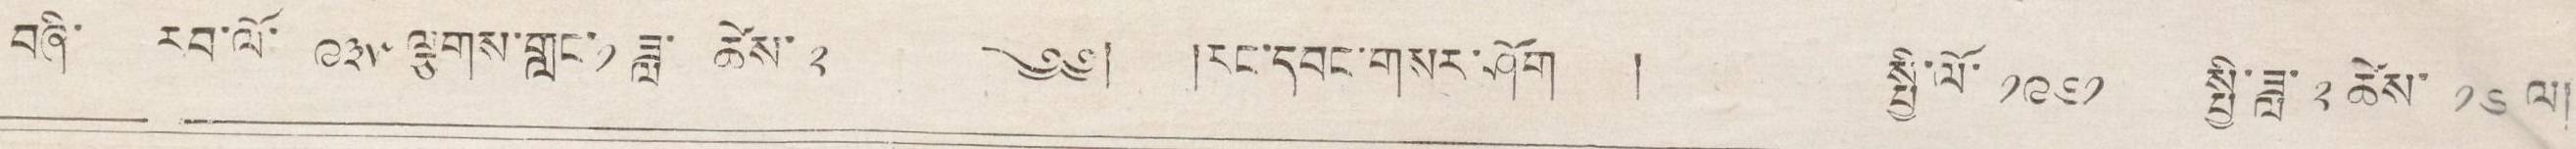བཞི་ རབ་ལོ་ ༩༣༥ ལྕགས་གླང་ ༡ ཟླ་ ཚེས་ ༢ ༄༅། །རང་དབང་གསར་ཤོག ། སྤྱི་ལོ་ ༡༩༦༡ སྤྱི་ཟླ་ ༢ ཚེས་ ༡༦ ལ།
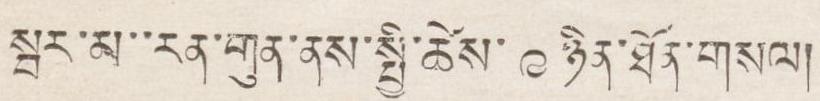སྦར་མ་་རན་གུན་ནས་སྤྱི་ཚེས་ ༩ ཉིན་ཐོན་གསལ།
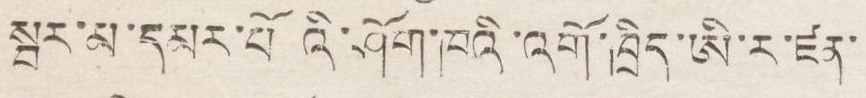སྦར་མ་དམར་པོའི་ཤོག་ཁའི་འགོ་ཁྲིད་ཨི་ར་ཛན་
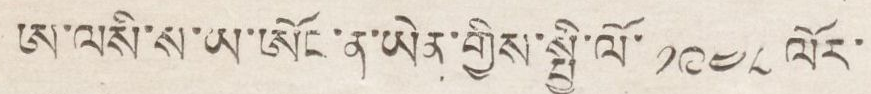ཨ་ལསི་ས་ཡ་ཨོང་ན་ཡེན་གྱིས་སྤྱི་ལོ་ ༡༩༤༨ ལོར་
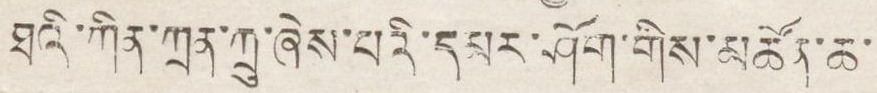ཐའི་ཀིན་ཀྲན་ཀྲུ་ཞེས་པའི་དམར་ཤོག་གིས་མཚོན་ཆ་
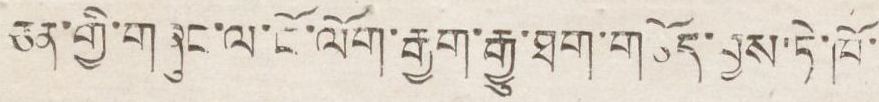ཅན་གྱི་གཞུང་ལ་ངོ་ལོག་རྒྱག་ཐག་གཅོད་བྱས་ཏེ་ཁོ་
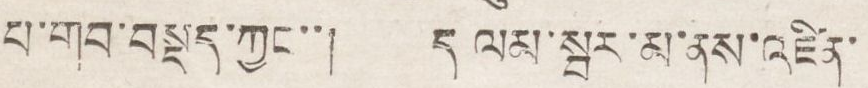པ་གབ་བསྡད་ཀྱང་་། ད ལམ་སྦར་མ་ནས་འཛིན་
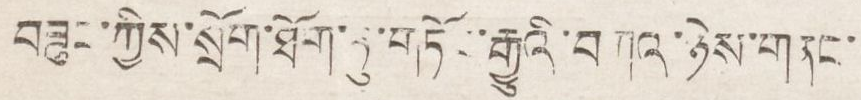བཟུང་ཀྱིས་སྲོག་ཐོག་ཏུ་གཏོང་རྒྱུའི་བཀའ་ཉེས་གནང་
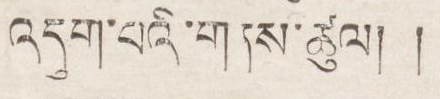འདུག་པའི་གནས་ཚུལ། །
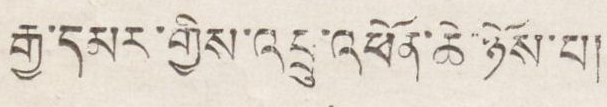རྒྱ་དམར་གྱིས་འབྲུ་འཕོན་ཆེ་ཉོས་པ།
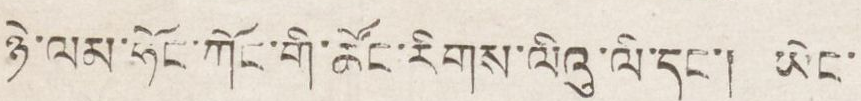ཉེ་ལམ་ཧོང་ཀོང་གི་ཚོང་རིགས་ལིའུ་ལི་དང་། ཡེང་
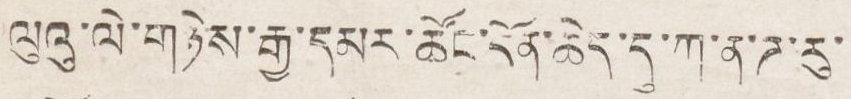ལུའུ་ལེ་གཉེས་རྒྱ་དམར་ཚོང་དོན་ཆེད་དུ་ཀ་ན་ཌ་རུ་
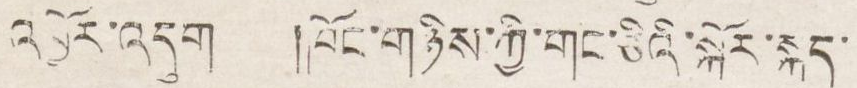འབྱོར་འདུག །ཁོང་གཉིས་ཀྱི་གང་ཅིའི་སྐོར་སྐད་
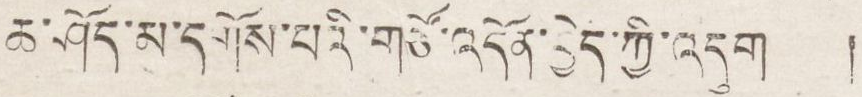ཆ་ཤོད་མ་དགོས་པའི་གཙོ་འདོན་བྱེད་ཀྱི་འདུག །
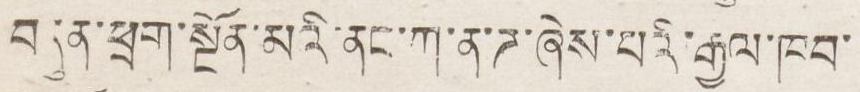བདུན་ཕྲག་སྔོན་མའི་ནང་ཀ་ན་ཌ་ཞེས་པའི་རྒྱལ་ཁབ་
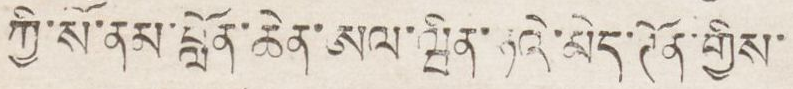ཀྱི་སོ་ནམ་བློན་ཆེན་ཨལ་ཝིན་ཧའེ་མེད་ཊོན་གྱིས་
